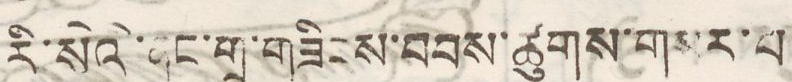རི་སའི་ནང་གྲུ་གཟིངས་བབས་ཚུགས་གསར་པ
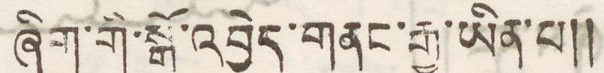ཞིག་གི་སྒོ་འབྱེད་གནང་རྒྱུ་ཡིན་པ།།
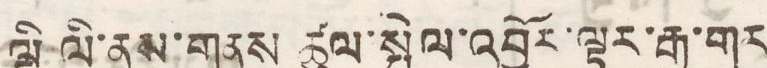ལྡི ལི་ནས་གནས ཚུལ་སྤེལ་འབྱོར་ལྟར་རྒྱ་གར
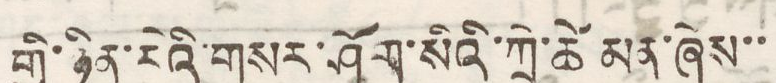གྱི་ཉིན་རེའི་གསར་ཤོག་སིའི་ཀྲེ་ཚེ མན་ཞེས་་
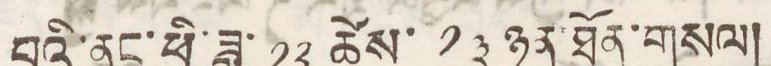བའི་ནང་ཕྱི་ཟླ་ ༡༢ ཚེས་ ༡༣ ཉན་ཐོན་གསལ།
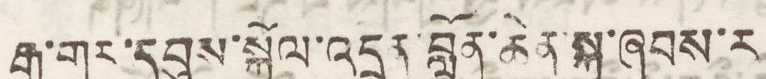རྒྱ་གར་དབུས་སྐྱོལ་འདྲན་བློན་ཆེན་སྐུ་ཞབས་ར
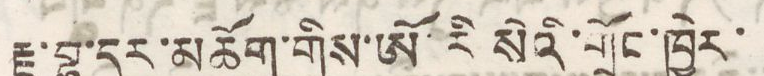རྗ་བྷ་དུར་མཆོག་གིས་ཨོ་རི སའི་གྲོང་ཁྱེར་
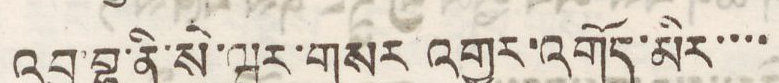འབུ་བྷ་ནི་སེ་ཝར་གསར འགྱུར་འགོད་མིར་་་་
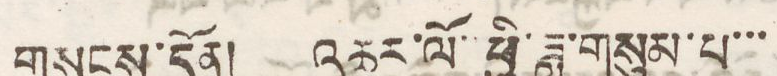གསུངས་དོན། འཆར་ལོ་ཕྱི་ཟླ་གསུམ་པ་་་
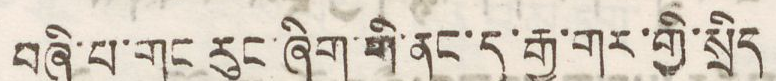བཞི་པ་གང རུང་ཞིག་ཧོ་ནང་དུ་རྒྱ་གར་གྱི་སྲིད
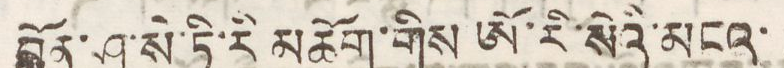བློན་ཤ་སེ་ཏི་རི མཆོག་གིས ཨོ་རི་སའི་མངའ་
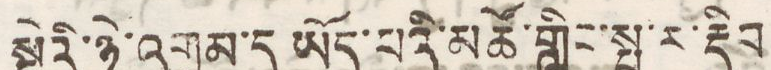སྡེའི་ཉེ་འགྲམ་དུ ཡོད་པའི་མཚོ་གླིང་སྤ་ར་རྡིབ
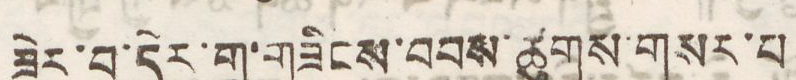ཟེར་བ་དེར་གྲུ་གཟིངས་བབས་ཚུགས་གསར་པ
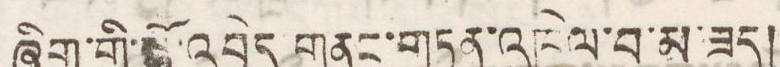ཞིག་གི་སྒོ་འབྱེད གནང་གཏན་འཁེལ་བ་མ་ཟད།
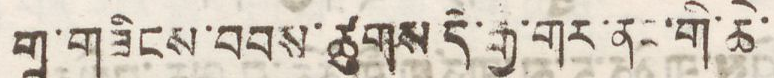གྲུ་གཟིངས་བབས་ཚུགས་དེ་རྒྱ་གར་ནང་གི་ཆེ་
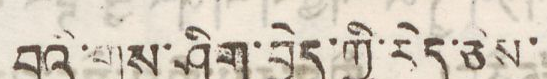བའི་གྲས་ཤིག་བྱེད་གྱི་རེད་ཅེས་
